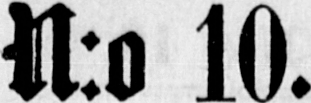N:o 10.
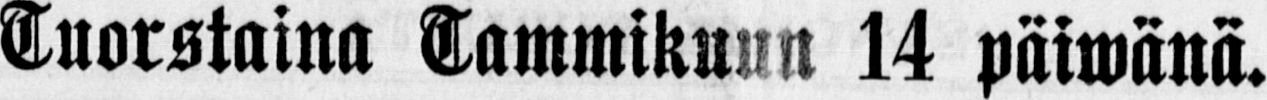Tuorstaina Tammikuun 14 päiwänä.
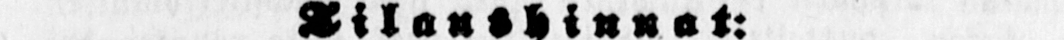Tilaushinnat:
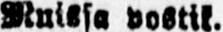Ruissa postik.
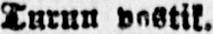Turun postik.
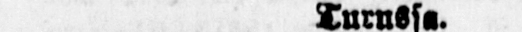Turussa.
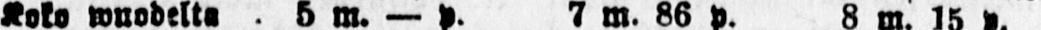Koko wuodelta 5 m.-p. 7m.86p. 8m. 15 p.
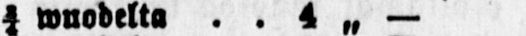½ wuodelta 4 ˶ - 6 ˶ 28 ˶ 6 ˶ 42 ˶
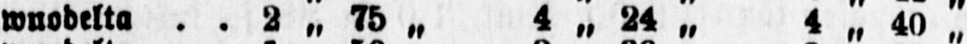½ wuodelta 2 ˶ 75 „ 4 ˶ 24 4 „ 40 "
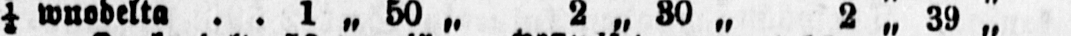½ Wuodelta 1 ˶ 50 ˶ 2 „ 39 ˶
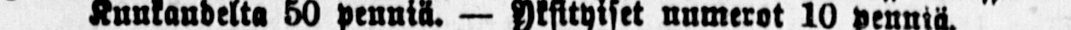Kuukandelta 50 penniä. - yksityiset numerot 10 penniä."
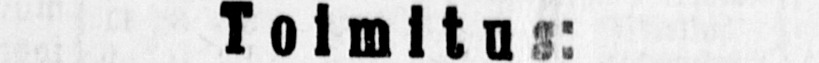Toimitus:
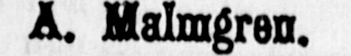A Malmgren.
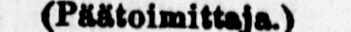Päätoimittaja
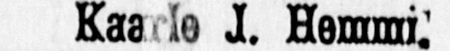Kaarle J. Hemmi.
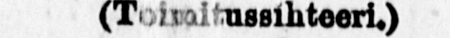Toimitussohteeri.
